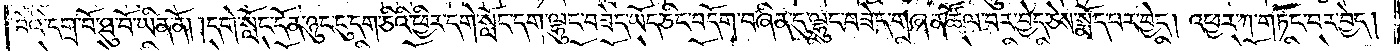བོའི་དགྲ་བོ་ཐུ་བོ་ཡིན་ནོ། །དགེ་སློང་དོན་ཉུང་ངུ་དག་ཅིའི་ཕྱིར་དགེ་སློང་དག་ལྷུང་བཟེད་ཡོད་ཅིང་བདོག་བཞིན་དུ་ལྷུང་བཟེད་གཞན་ཚོལ་བར་བྱེད་ཅེས་སྨོད་པར་བྱེད། འཕྱར་ཀ་གཏོང་བར་བྱེད།
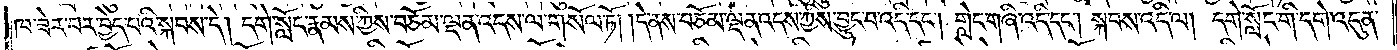ཁ་ཟེར་བར་བྱེད་པའི་སྐབས་དེ། དགེ་སློང་རྣམས་ཀྱིས་བཅོམ་ལྡན་འདས་ལ་གསོལ་ཏོ། །དེ་ནས་བཅོམ་ལྡན་འདས་ཀྱིས་བྱུང་བ་འདི་དང༌། གླེང་གཞི་འདི་དང༌། སྐབས་འདི་ལ། དགེ་སློང་གི་དགེ་འདུན་
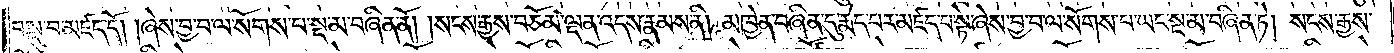བསྡུ་བ་མཛད་དོ། །ཞེས་བྱ་བ་ལ་སོགས་པ་སྔ་མ་བཞིན་ནོ། །སངས་རྒྱས་བཅོམ་ལྡན་འདས་རྣམས་ནི། མཁྱེན་བཞིན་དུ་རྨེད་པར་མཛད་པ་སྟེ་ཞེས་བྱ་བ་ལ་སོགས་པ་ཡང་སྔ་མ་བཞིན་ཏེ། སངས་རྒྱས་
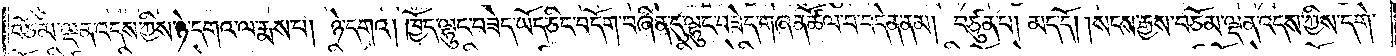བཅོམ་ལྡན་འདས་ཀྱིས་ཉེ་དགའ་ལ་རྨས་པ། ཉེ་དགའ། ཁྱོད་ལྷུང་བཟེད་ཡོད་ཅིང་བདོག་བཞིན་དུ་ལྷུང་བཟེད་གཞན་ཚོལ་བ་བདེན་ནམ། བཙུན་པ། མད་དོ། །སངས་རྒྱས་བཅོམ་ལྡན་འདས་ཀྱིས་དགེ་
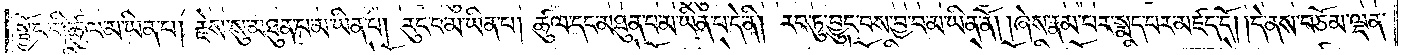སྦྱོང་གི་ཚུལ་མ་ཡིན་པ། རྗེས་སུ་མཐུན་པ་མ་ཡིན་པ། རུང་བ་མ་ཡིན་པ། ཚུལ་དང་མཐུན་པ་མ་ཡིན་པ་དེ་ནི། རབ་ཏུ་བྱུང་བས་བྱ་བ་མ་ཡིན་ནོ། །ཞེས་རྣམ་པར་སྨད་པར་མཛད་དོ། །དེ་ནས་བཅོམ་ལྡན་
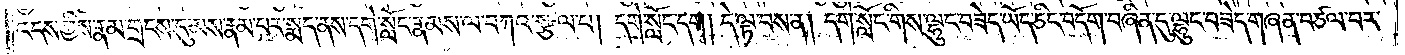འདས་ཀྱིས་རྣམ་གྲངས་དུ་མས་རྣམ་པར་སྨད་ནས་དགེ་སློང་རྣམས་ལ་བཀའ་སྩལ་པ། དགེ་སློང་དག། དེ་ལྟ་བས་ན། དགེ་སློང་གིས་ལྷུང་བཟེད་ཡོད་ཅིང་བདོག་བཞིན་དུ་ལྷུང་བཟེད་གཞན་བཙལ་བར་
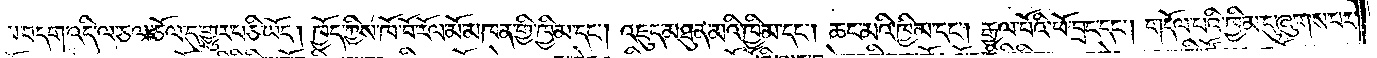མ་བདག་འདི་ལ་ཅལ་ཅོལ་དུ་གྱུར་པ་ཅི་ཡོད། ཁྱོད་ཀྱིས་ཁོ་བོ་རོལ་མོ་མཁན་གྱི་ཁྱིམ་དང༌། འཇུད་མཐུན་མའི་ཁྱིམ་དང༌། ཆང་མའི་ཁྱིམ་དང༌། རྒྱལ་པོའི་ཕོ་བྲང་དང༌། གདོལ་པའི་ཁྱིམ་དུ་ཞུགས་པར་
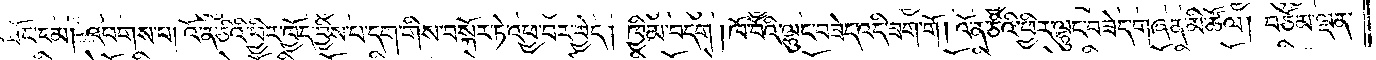མཐོང་ངམ། འཕགས་པ། འོ་ན་ཅིའི་ཕྱིར་ཁྱོད་བྱིས་པ་དག་གིས་བསྐོར་ཏེ་འཕྱ་བར་བྱེད། ཁྱིམ་བདག །ཁོ་བོའི་ལྷུང་བཟེད་འདི་ཟག་གོ། འོ་ན་ཅིའི་ཕྱིར་ལྷུང་བཟེད་གཞན་མི་ཚོལ། བཅོམ་ལྡན་
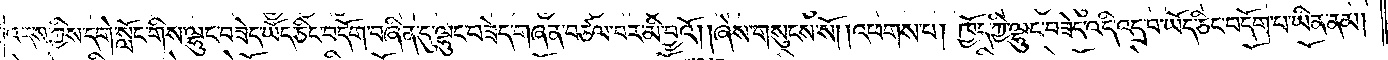འདས་ཀྱིས་དགེ་སློང་གིས་ལྷུང་བཟེད་ཡོད་ཅིང་བདོག་བཞིན་དུ་ལྷུང་བཟེད་གཞན་བཙལ་བར་མི་བྱའོ། །ཞེས་གསུངས་སོ། །འཕགས་པ། ཁྱོད་ཀྱི་ལྷུང་བཟེད་འདི་འདྲ་བ་ཡོད་ཅིང་བདོག་པ་ཡིན་ནམ།
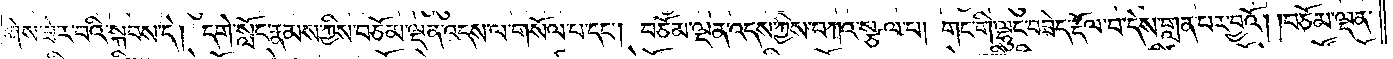ཞེས་ཟེར་བའི་སྐབས་དེ། དགེ་སློང་རྣམས་ཀྱིས་བཅོམ་ལྡན་འདས་ལ་གསོལ་པ་དང༌། བཅོམ་ལྡན་འདས་ཀྱིས་བཀའ་སྩལ་པ། གང་གི་ལྷུང་བཟེད་རྡོལ་བ་དེས་གླན་པར་བྱའོ། །བཅོམ་ལྡན་
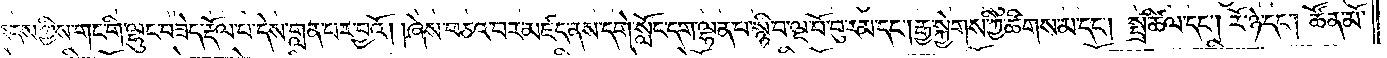འདས་ཀྱིས་གང་གི་ལྷུང་བཟེད་རྡོལ་པ་དེས་གླན་པར་བྱའོ། །ཞེས་བཅའ་བར་མཛད་ནས་དགེ་སློང་དག་ལྷན་པ་སྙི་བ་ལྔ་པོ་བུ་རམ་དང༌། རྒྱ་སྐྱེགས་ཀྱི་ཚིགས་མ་དང༌། སྤྲ་ཚིལ་དང༌། རོ་ཉེ་དང༌། ཚོན་མོ་
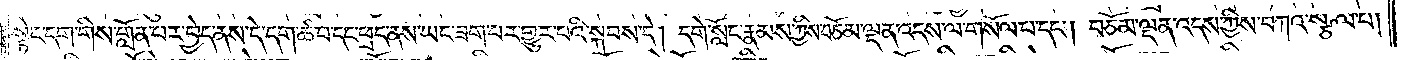སྟེང་དག་གིས་གློན་པར་བྱེད་ནས་དེ་དག་ཚ་བ་དང་ཕྲད་ནས་ཡང་ཟག་པར་གྱུར་པའི་སྐབས་དེ། དགེ་སློང་རྣམས་ཀྱིས་བཅོམ་ལྡན་འདས་ལ་གསོལ་པ་དང༌། བཅོམ་ལྡན་འདས་ཀྱིས་བཀའ་སྩལ་པ།
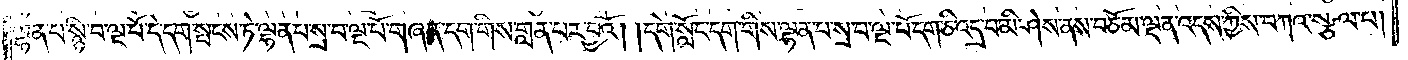ལྷན་པ་སྙི་བ་ལྔ་པོ་དེ་དག་སྤངས་ཏེ་ལྷན་པ་སྲ་བ་ལྔ་པོ་གཞན་དག་གིས་གླན་པར་བྱའོ། །དགེ་སློང་དག་གིས་ལྷན་པ་སྲ་བ་ལྔ་པོ་དག་ཅི་འདྲ་བ་མི་ཤེས་ནས་བཅོམ་ལྡན་འདས་ཀྱིས་བཀའ་སྩལ་པ།
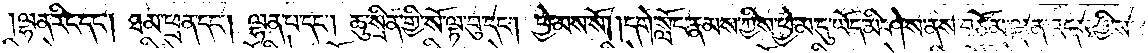ལྷན་རིང་དང༌། ཐམ་ཕྲན་དང༌། ལྷན་པ་དང༌། ཆུ་སྲིན་གྱི་སོ་ལྟ་བུ་དང༌། ཕྱེ་མས་སོ། །དགེ་སློང་རྣམས་ཀྱིས་ཕྱེ་མ་དུ་ཡོད་མི་ཤེས་ནས་བཅོམ་ལྡན་འདས་ཀྱིས་
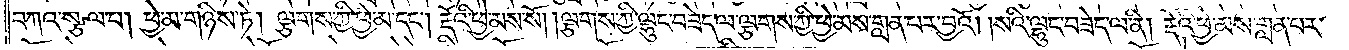བཀའ་སྩལ་པ། ཕྱེ་མ་གཉིས་ཏེ། ལྕགས་ཀྱི་ཕྱེ་མ་དང༌། རྡོའི་ཕྱེ་མས་སོ། །ལྕགས་ཀྱི་ལྷུང་བཟེད་ལ་ལྕགས་ཀྱི་ཕྱེ་མས་གླན་པར་བྱའོ། །སའི་ལྷུང་བཟེད་ལ་ནི། རྡོའི་ཕྱེ་མས་གླན་པར་
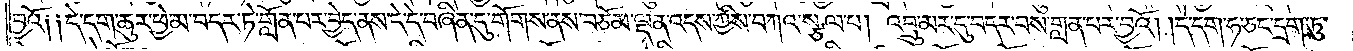བྱའོ༑ ༑དེ་དག་ཆུར་ཕྱེ་མ་བདར་ཏེ་གློན་པར་བྱེད་ནས་དེ་དེ་བཞིན་དུ་གོགས་ནས་བཅོམ་ལྡན་འདས་ཀྱིས་བཀའ་སྩལ་པ། འབྲུ་མར་དུ་བདར་བས་གླན་པར་བྱའོ། །དེ་དག་ཧ་ཅང་དྲག་ཏུ་
